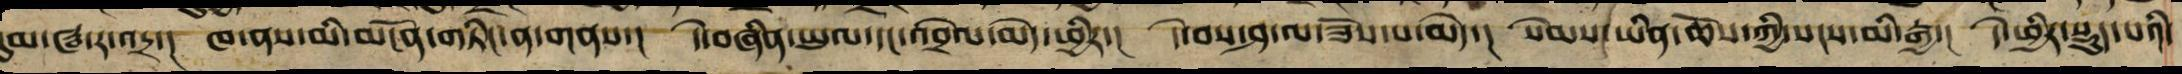དུམ་ཝ་ར་འདྲ་། ཁ་ནས་མི་མངོན་གཏིང་ན་གནས་། དེ་བཞིན་ཡུལ་དང་འབྲེལ་མེད་ཕྱིར་། དེ་བས་ཤ་ལ་ཟོས་པ་མེད་། སེམས་ཡིན་ཆོས་ཀྱིས་སངས་མི་རྒྱ་། དེ་ཕྱིར་སྡུད་པའི་
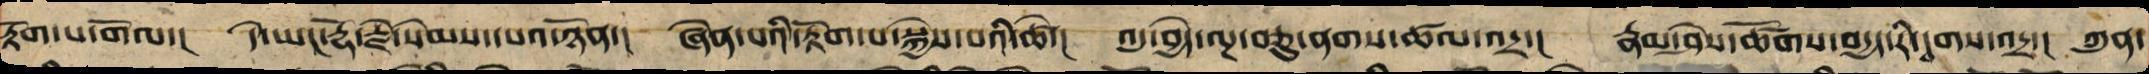རྟོག་པ་གོལ་། དེ་ཡང་རྡོ་རྗེས་སེམས་དཔའ་ཉོན་། ཞེན་པའི་རྟོག་པ་སྐྱེས་པའི་ཚེ་། འདུ་བྱེད་ལྔ་བཅུ་ནགས་ཚལ་འདྲ་། རྣམ་ཤེས་ཚོགས་བདྱད་རི་དྭགས་འདྲ་། ཀུན་
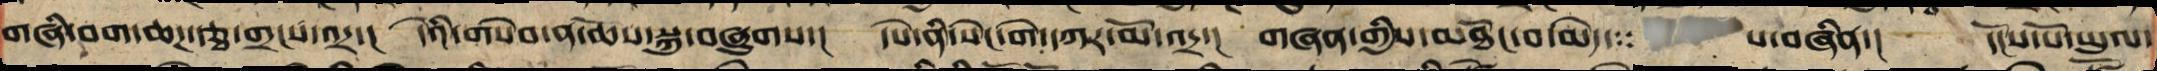གཞི་བག་ཆཌ་རྩྭ་གྲངས་འདྲ་། དེའི་གསེབ་ན་ཆོས་སྐུ་བཞུགས་། དཔེ་ནི་སེང་གེ་དཀར་མོ་འདྲ་། གཞན་གྱིས་མཐོང་བ་མེད་པ་བཞིན་། དངོས་པོ་ཡུལ་
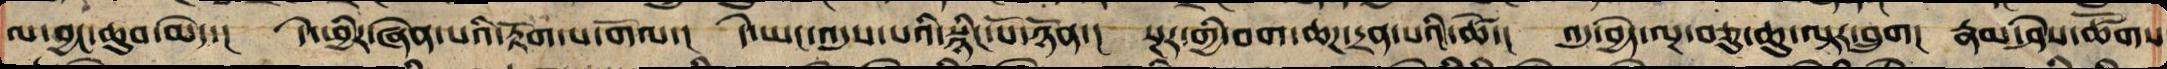ལ་བྱང་ཆུབ་མེད་། དེ་ཕྱིར་ཞེན་པའི་རྟོག་པ་གོལ་། དེ་ཡང་འདུས་པའི་སྙིང་པོ་ཉོན་། སྔར་གྱི་བག་ཆཌ་དྲན་པའི་ཚེ་། འདུ་བྱེད་ལྔ་བཅུ་ཆུ་ལྟར་བྲུག། རྣམ་ཤེས་ཚོགས
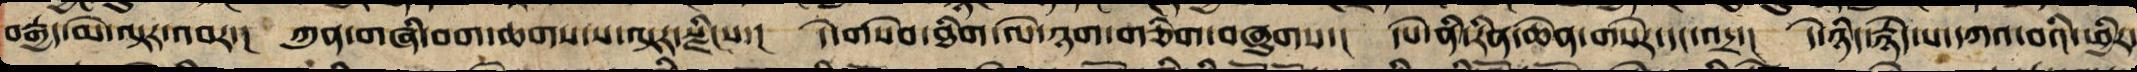བརྒྱད་མེ་ལྟར་འབར་། ཀུན་གཞི་བག་ཆགས་ས་ལྟར་རྫིངས་། དེ་གསེབ་ཐིག་ལེ་ཉག་གཅིག་བཞུགས་། དཔེ་ནི་རིན་ཆེན་གསེར་དང་འདྲ་། དེ་ཉིད་རྙེད་པ་དཀའ་བའི་ཕྱིར་
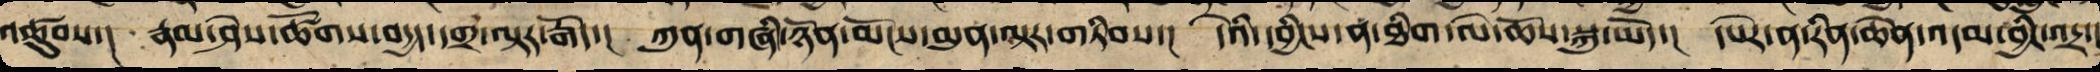འཚུབས་། རྣམ་ཤེས་ཚོགས་བདྱད་དགྲ་ལྟར་རྒོད་། ཀུན་གཞི་ཉོན་མོངས་མུན་ལྟར་གཏིབས་། དེའི་དབྱིངས་ཐིག་ལེ་ཆོས་སྐུ་ཡོད་། དཔེར་ན་རིན་ཆེན་འདམ་བྱིང་འདྲ་།
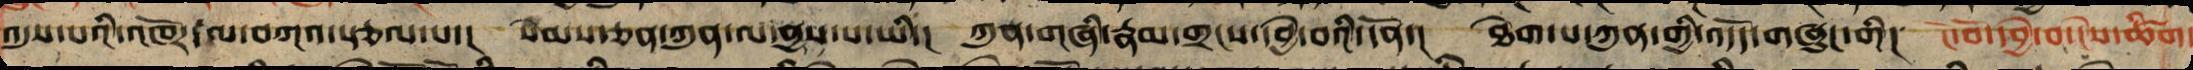འདུས་པའི་འཁོར་ལ་བཀའ་སྩལ་པ་། སེམས་ཅན་ཀུན་ལ་ནྱས་པ་ཡི་། ཀུན་གཞི་རྣམ་གྲངས་དབྱེ་བའི་དོན་། ཐེག་པ་ཀུན་གྱི་འདོད་གཞུང་གི། ངོ་བོ་དབྱེ་བ་ངེས་ཚིག་
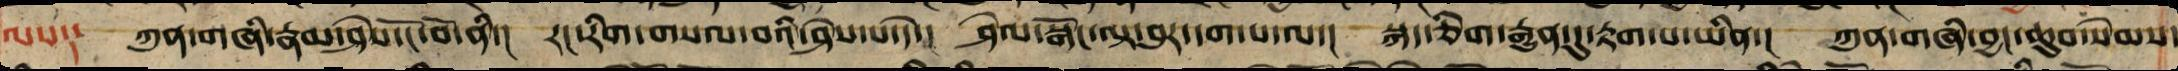ལས༑ ཀུན་གཞི་རྣམ་ཤེས་ངོ་བོ་ནི་། རང་རིག་གསལ་བའི་ཤེས་པ་དེ་། ཤེལ་སྒོང་ལྟ་བུར་དག་པ་ལ་། སྐད་ཅིག་རྒྱུན་དུ་རྟག་པ་ཡིན་། ཀུན་གཞི་བྱང་ཆུབ་སེམས་
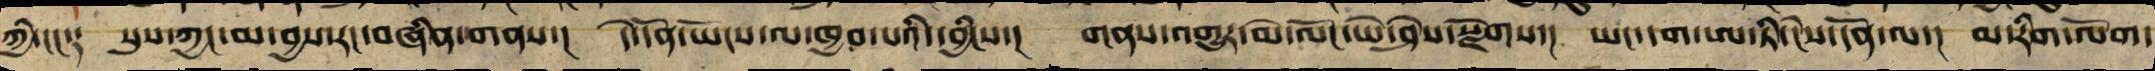ཀྱི་ངང༑ སུས་ཀྱང་མ་བྱས་རང་བཞིན་གནས་། དེ་དོན་ཡོངས་ལ་ཁྱབ་པའི་དབྱིངས་། གནས་འགྱུར་མེ་ལོང་ཡེ་ཤེས་སྫོགས་། ཡང་དག་ཨ་ཏི་ངེས་དོན་ལ་། མ་རིག་ལོག་
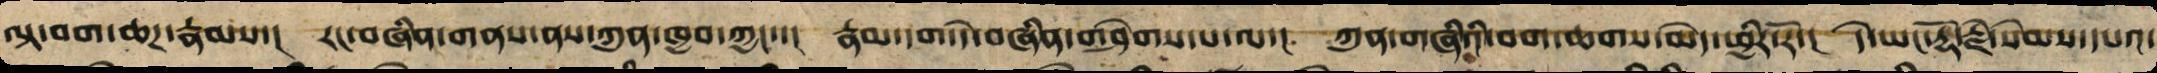ལྟའི་བག་ཆཌ་རྣམས་། རང་བཞིན་གནས་ནས་ཀུན་ཁྱབ་ཀྱང་་། རྣམ་དག་དེ་བཞིན་གཤེགས་པ་ལ་། ཀུན་གཞིའི་བག་ཆགས་མེད་ཕྱིར་རོ་། དེ་ཡང་རྡོ་རྗེ་སེམས་དཔའ་
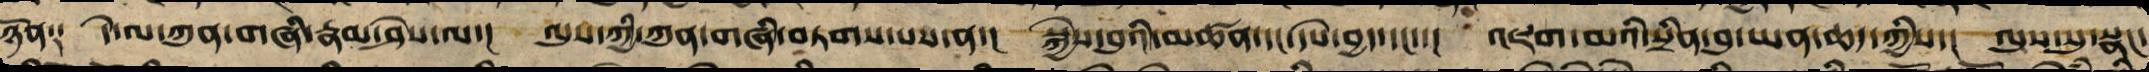ཉོན༑ དེ་ཡང་ཀུན་གཞིའི་རྣམ་ཤེས་ལ་། ལུས་ཀྱི་ཀུན་གཞིར་བཏགས་པས་ན་། སྐྱེས་བུའི་མཚན་དང་དཔེ་བྱད་དང་་། འཇག་མའི་སྲིན་བུ་ཡན་ཆད་ཀྱིས་། ལུས་སུ་སྣང་
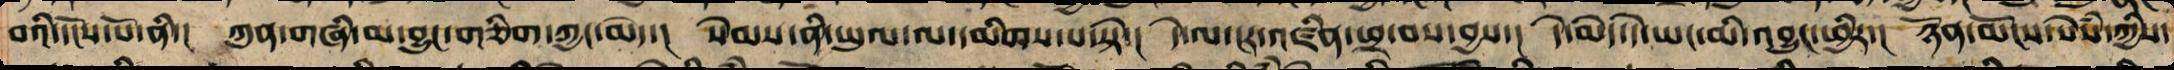བའི་དངོས་པོ་ནི་། ཀུན་གཞི་མ་བྱུང་གཅིག་ཀྱང་མེད་། སེམས་ནི་ཡུལ་ལ་དམིགས་པ་སྟེ་། དེ་ལ་ངར་འཛིན་ཕྲ་བས་བྱས་། དེ་མེད་དེ་ཡང་མི་འབྱུང་ཕྱིར་། ཉོན་མོངས་སེཾས་ཀྱིས་
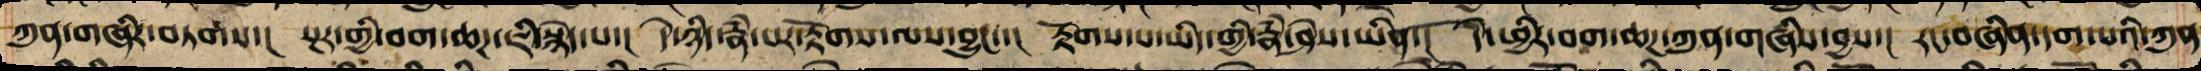ཀུན་གཞིར་བཏགས་། སྔར་གྱི་བག་ཆཌ་ཇི་སྙེད་པ་། དེ་ཉིད་རྣཾ་པར་རྟོགས་ལས་བྱུང་་། རྟོགས་པ་ཡིད་ཀྱི་རྣཾ་ཤེས་ཡིན་། དེ་ཕྱིར་བག་ཆཌ་ཀུན་གཞིས་བྱས་། རང་བཞིན་དག་པའི་ཀུན
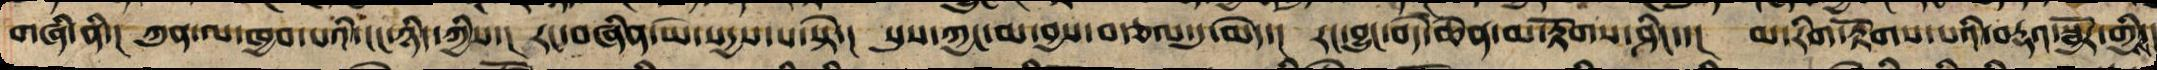གཞི་ནི་། ཀུན་ལ་ཁྱབ་པའི་རང་ཉིད་ཀྱིས་། རང་བཞིན་ཡེ་སདྱས་པ་སྟེ་། སུས་ཀྱང་མ་བྱས་བཙལ་དུ་མེད་། རང་བྱུང་བདེ་ཆེན་མ་རྟོགས་ཤིང་་། མ་རིག་རྟོགས་པའི་བརྡའ་སྦྱོར་གྱིས་
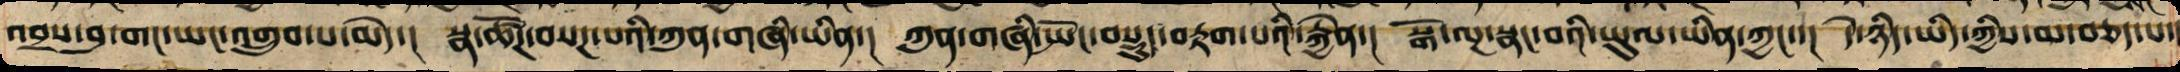འབྲས་བུ་གང་ཡང་འགྲུབ་པ་མེད་། སྣ་ཚོཌ་བསཌ་པའི་ཀུན་གཞི་ཡིན་། ཀུན་གཞི་སྤང་བསྡུད་བརྟགས་པའི་རྐྱེན་། སྒོ་ལྔ་སྣང་བའི་ཡུལ་ཡིན་ཀྱང་་། དེ་ཉིད་ཡིད་ཀྱིས་མ་བཅད་པ་།
